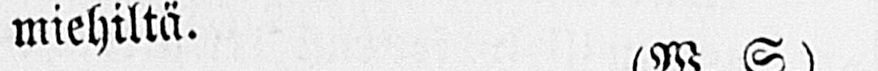miehiltä (W.S.)
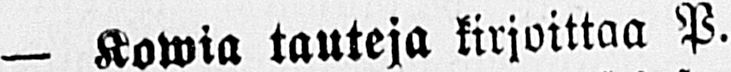— Kowia tauteja kirjoittaa P. L.
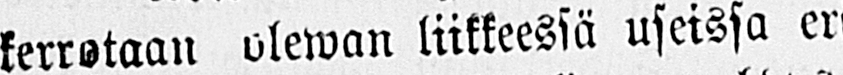kerrotaan olewan liikkeessä useissä eri
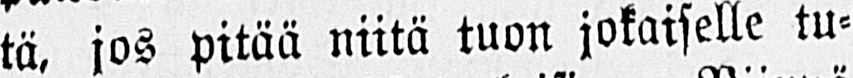tä, jos pitää niitä tuon jokaiselle tu-
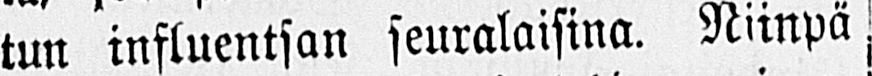tun influentsan seuralaisina. Niinpä,
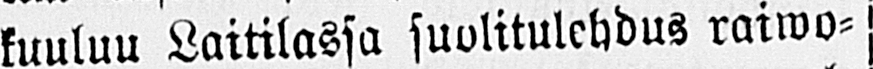kuuluu Laitilassa suolitulehdus raiwo-
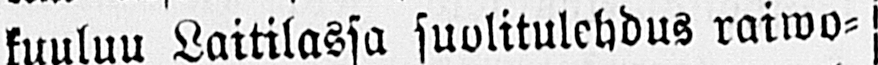awan ja Nousiaisissa keuhkokuume pal-
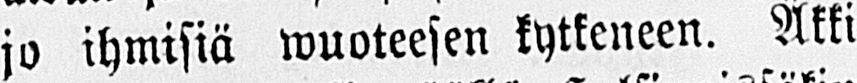jo ihmisiä wuoteesen kytkeneen. Äkki
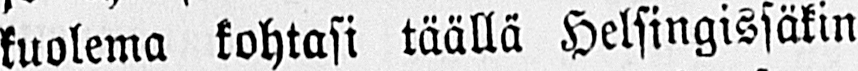kuolema kohtasi täällä Helsingissäkin
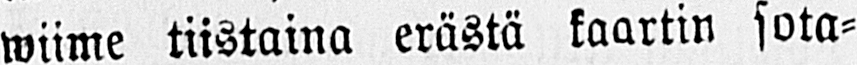wiime tiistaina erästä kaartin sota-
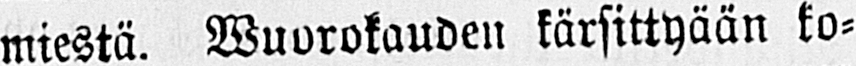miestä. Wuorokauden kärsittyään ko-
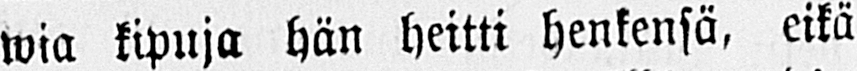wia kipuja hän heitti henkensä, eikä
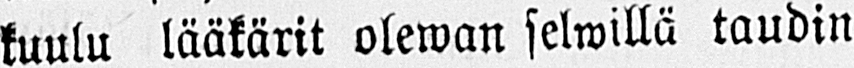kuulu lääkärit olewan selwillä taudin
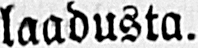laadusta.
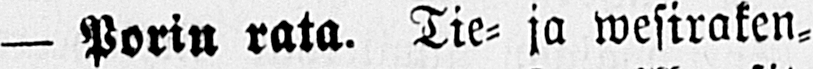— Porin rata. Tie- ja wesiraken-
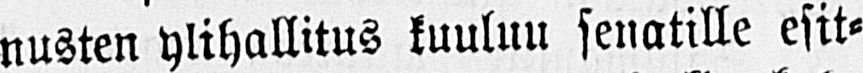nusten ylihallitus kuuluu senatille esit-
